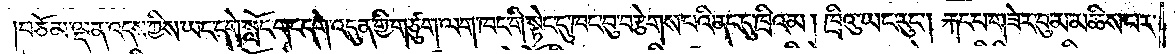བཅོམ་ལྡན་འདས་ཀྱིས་ཡང་དགེ་སློང་གང་དགེ་འདུན་གྱི་གཙུག་ལག་ཁང་གི་སྟེང་དུ་ཁང་བུ་བརྩེགས་པའི་ནང་དུ་ཁྲིའམ། ཁྲིའུ་ཡང་རུང༌། རྐང་པ་གཟེར་བུ་མ་མཆིས་པར་
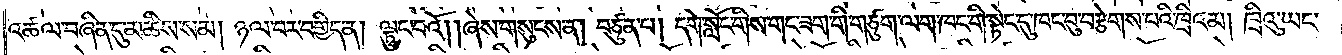འཚལ་བཞིན་དུ་མཆིས་སམ། ཉལ་བར་བགྱིད་ན། ལྟུང་བའོ། །ཞེས་གསུངས་ན། བཙུན་པ། དགེ་སློང་གིས་གང་ཟག་གི་གཙུག་ལག་ཁང་གི་སྟེང་དུ་ཁང་བུ་བརྩེགས་པའི་ཁྲིའམ། ཁྲིའུ་ཡང་
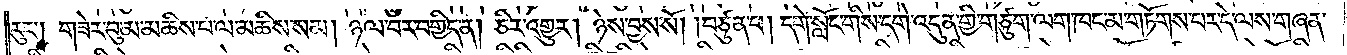རུང༌། གཟེར་བུ་མ་མཆིས་པ་ལ་མཆིས་སམ། ཉལ་བར་བགྱིད་ན། ཅིར་འགྱུར། ཉེས་བྱས་སོ། །བཙུན་པ། དགེ་སློང་གིས་དགེ་འདུན་གྱི་གཙུག་ལག་ཁང་མ་གཏོགས་པར་དེ་ལས་གཞན་
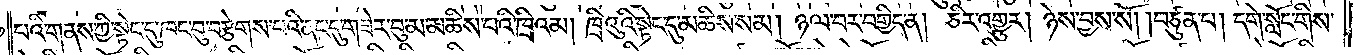པའི་གནས་ཀྱི་སྟེང་དུ་ཁང་བུ་བརྩེགས་པའི་ནང་དུ་གཟེར་བུ་མ་མཆིས་པའི་ཁྲིའམ། ཁྲིའུའི་སྟེང་དུ་མཆིས་སམ། ཉལ་བར་བགྱིད་ན། ཅིར་འགྱུར། ཉེས་བྱས་སོ། །བཙུན་པ། དགེ་སློང་གིས་
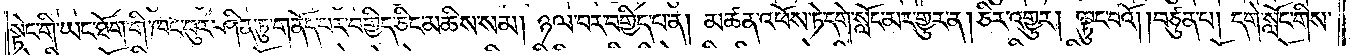སྟེང་གི་ཡང་ཐོག་གི་ཁང་བུར་ཤིན་ཏུ་གནོད་པར་བགྱིད་ཅིང་མཆིས་སམ། ཉལ་བར་བགྱིད་པ་ན། མཚན་འཕོས་ཏེ་དགེ་སློང་མར་གྱུར་ན། ཅིར་འགྱུར། ལྟུང་བའོ། །བཙུན་པ། དགེ་སློང་གིས་
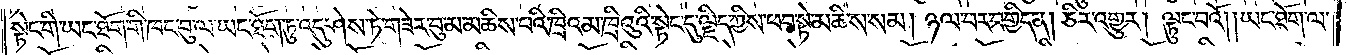སྟེང་གི་ཡང་ཐོག་གི་ཁང་བུ་ལ་ཡང་ཐོག་ཏུ་འདུ་ཤེས་ཏེ་གཟེར་བུ་མ་མཆིས་པའི་ཁྲིའམ་ཁྲིའུའི་སྟེང་དུ་ལྗིད་ཀྱིས་ཕབ་སྟེ་མཆིས་སམ། ཉལ་བར་བགྱིད་ན། ཅིར་འགྱུར། ལྟུང་བའོ། །ཡང་ཐོག་ལ་
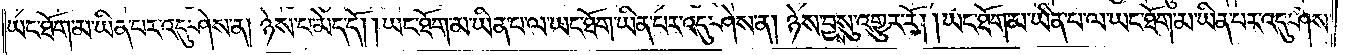ཡང་ཐོག་མ་ཡིན་པར་འདུ་ཤེས་ན། ཉེས་པ་མེད་དོ། །ཡང་ཐོག་མ་ཡིན་པ་ལ་ཡང་ཐོག་ཡིན་པར་འདུ་ཤེས་ན། ཉེས་བྱས་སུ་འགྱུར་རོ། །ཡང་ཐོག་མ་ཡིན་པ་ལ་ཡང་ཐོག་མ་ཡིན་པར་འདུ་ཤེས་
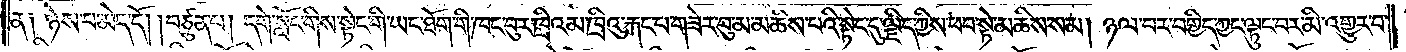ན༑ ཉེས་པ་མེད་དོ། །བཙུན་པ། དགེ་སློང་གིས་སྟེང་གི་ཡང་ཐོག་གི་ཁང་བུར་ཁྲིའམ་ཁྲིའུ་རྐང་པ་གཟེར་བུ་མ་མཆིས་པའི་སྟེང་དུ་ལྗིད་ཀྱིས་ཕབ་སྟེ་མཆིས་སམ། ཉལ་བར་བགྱིད་ཀྱང་ལྟུང་བར་མི་འགྱུར་བ་
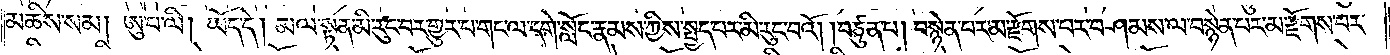མཆིས་སམ། ཨུ་པ་ལི། ཡོད་དེ། མལ་སྟན་མི་རུང་བར་གྱུར་པ་གང་ལ་དགེ་སློང་རྣམས་ཀྱིས་སྤྱད་པར་མི་རུང་བའོ། །བཙུན་པ། བསྙེན་པར་མ་རྫོགས་པར་བཤམས་ལ་བསྙེན་པར་མ་རྫོགས་པར་
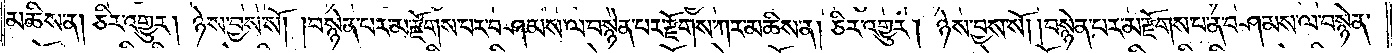མཆིས་ན། ཅིར་འགྱུར། ཉེས་བྱས་སོ། །བསྙེན་པར་མ་རྫོགས་པར་བཤམས་ལ་བསྙེན་པར་རྫོགས་ཀར་མཆིས་ན། ཅིར་འགྱུར། ཉེས་བྱས་སོ། །བསྙེན་པར་མ་རྫོགས་པ་ན་བཤམས་ལ་བསྙེན་
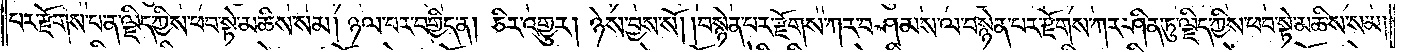པར་རྫོགས་པ་ན་ལྗིད་ཀྱིས་ཕབ་སྟེ་མཆིས་སམ། ཉལ་བར་བགྱིད་ན། ཅིར་འགྱུར། ཉེས་བྱས་སོ། །བསྙེན་པར་རྫོགས་ཀར་བཤམས་ལ་བསྙེན་པར་རྫོགས་ཀར་ཤིན་ཏུ་ལྗིད་ཀྱིས་ཕབ་སྟེ་མཆིས་སམ།
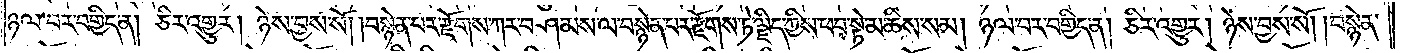ཉལ་བར་བགྱིད་ན། ཅིར་འགྱུར། ཉེས་བྱས་སོ། །བསྙེན་པར་རྫོགས་ཀར་བཤམས་ལ་བསྙེན་པར་རྫོགས་ཏེ་ལྗིད་ཀྱིས་ཕབ་སྟེ་མཆིས་སམ། ཉལ་བར་བགྱིད་ན། ཅིར་འགྱུར། ཉེས་བྱས་སོ། །བསྙེན་
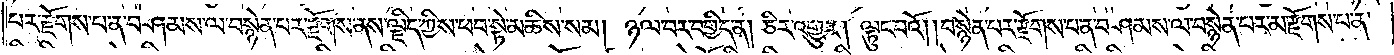པར་རྫོགས་པ་ན་བཤམས་ལ་བསྙེན་པར་རྫོགས་ནས་ལྗིད་ཀྱིས་ཕབ་སྟེ་མཆིས་སམ། ཉལ་བར་བགྱིད་ན། ཅིར་འགྱུར། ལྟུང་བའོ། །བསྙེན་པར་རྫོགས་པ་ན་བཤམས་ལ་བསྙེན་པར་མ་རྫོགས་པ་ན་
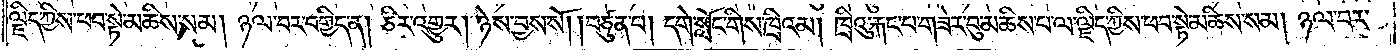ལྗིད་ཀྱིས་ཕབ་སྟེ་མཆིས་སམ། ཉལ་བར་བགྱིད་ན། ཅིར་འགྱུར། ཉེས་བྱས་སོ། །བཙུན་པ། དགེ་སློང་གིས་ཁྲིའམ། ཁྲིའུ་རྐང་པ་གཟེར་བུ་མཆིས་པ་ལ་ལྗིད་ཀྱིས་ཕབ་སྟེ་མཆིས་སམ། ཉལ་བར་
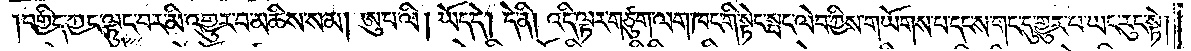།བགྱིད་ཀྱང་ལྟུང་བར་མི་འགྱུར་བ་མཆིས་སམ། ཨུ་པ་ལི། ཡོད་དེ། དེ་ནི། འདི་ལྟར་གཙུག་ལག་ཁང་གི་སྟེང་སྤང་ལེབ་ཀྱིས་གཡོགས་པ་དང་ས་གང་དུ་གྱུར་པ་ཡང་རུང་སྟེ།
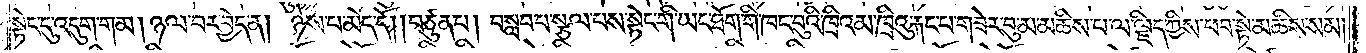སྟེང་དུ་འདུག་གམ། ཉལ་བར་བྱེད་ན། ཉེས་པ་མེད་དོ། །བཙུན་པ། བསླབ་པ་སྩལ་པས་སྟེང་གི་ཡང་ཐོག་གི་ཁང་བུའི་ཁྲིའམ་ཁྲིའུ་རྐང་པ་གཟེར་བུ་མ་མཆིས་པ་ལ་ལྗིད་ཀྱིས་ཕབ་སྟེ་མཆིས་སམ།
